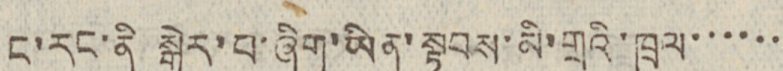ང་རང་ནི སྒེར་པ་ཞིག་ཡིན་སྟབས་མི་གྲའི་ཁྲལ་་་་་་
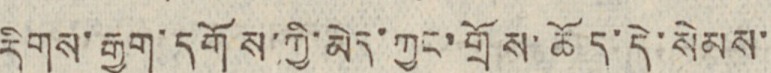རིགས་རྒྱུག་དགོས་ཀྱི་མེད་ཀྱང་གྲོས་ཆོད་དེ་སེམས་
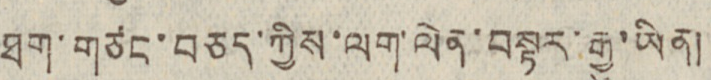ཐག་གཙང་བཅད་ཀྱིས་ལག་ལེན་བསྟར་རྒྱུ་ཡིན།
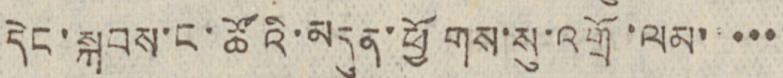དེང་སྐབས་ང་ཚོའི་མདུན་ཕྱོགས་སུ་འགྲོ་ལམ་་་་་
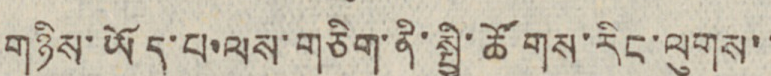གཉིས་ཡོད་པ་ལས་གཅིག་ནི་སྤྱི་ཚོགས་རིང་ལུགས་་
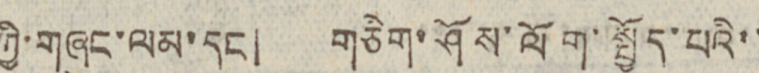ཀྱི་གཞུང་ལམ་དང། གཅིག་ཤོས་ལོག་སྤྱོད་པའི་་
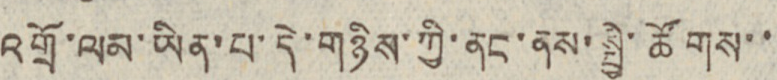འགྲོ་ལམ་ཡིན་པ་དེ་གཉིས་ཀྱི་ནང་ནས་སྤྱི་ཚོགས་་
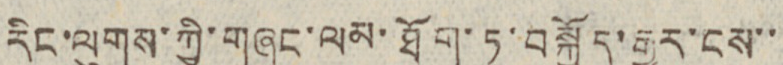རིང་ལུགས་ཀྱི་གཞུང་ལམ་ཐོག་ཏུ་བསྐྱོད་རྒྱུར་ངས་་
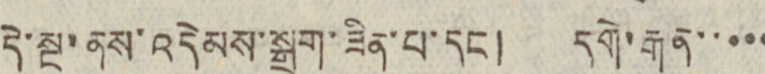དེ་སྔ་ནས་འདེམས་སྒྲུག་ཟིན་པ་དང། དགེ་རྒན་་་་་
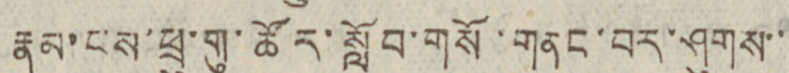རྣམ་པས་ཕྲུ་གུ་ཚོར་སློབ་གསོ་གནང་བར་ཤུགས་་
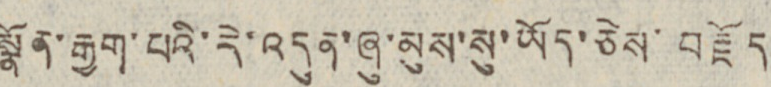སྣོན་རྒྱག་པའི་རེ་འདུན་ཞུ་མུས་སུ་ཡོད་ཅེས་བརྗོད
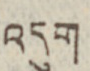འདུག
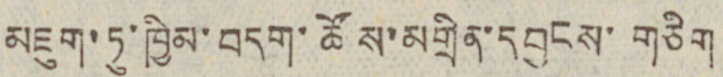མཇུག་ཏུ་ཁྱིམ་བདག་ཚོས་མགྲིན་དབྱངས་གཅིག
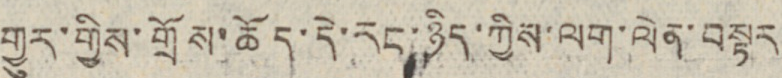གྱུར་གྱིས་གྲོས་ཆོད་དེ་རང་ཉིད་ཀྱིས་ལག་ལེན་བསྟར
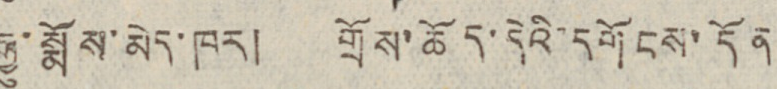རྒྱུ་སྨོས་མེད་ཁར། གྲོས་ཆོད་དེའི་དགོངས་དོན
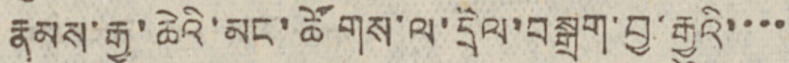རྣམས་རྒྱ་ཆེའི་མང་ཚོགས་ལ་དྲིལ་བསྒྲག་བྱ་རྒྱུའི་་་་
